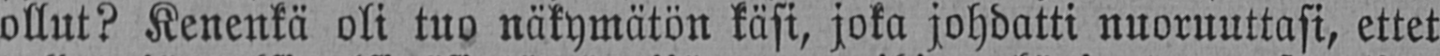ollut? Kenenkä oli tuo näkymätön käsi, joka johdatti nuoruuttasi, ettet
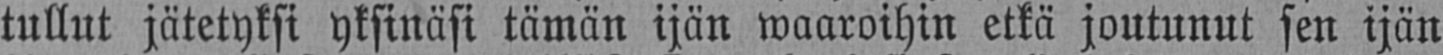tullut jätetyksi yksinäsi tämän ijän waaroihin etkä joutunut sen ijän
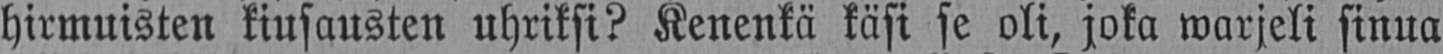hirmuisten kiusausten uhriksi? Kenenkä käsi se oli, joka warjeli sinua
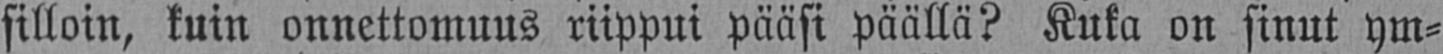silloin, kuin onnettomuus riippui pääsi päällä? Kuka on sinut ym-
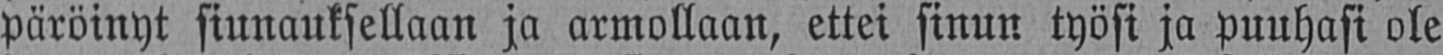päröinyt siunauksellaan ja armollaan, ettei sinun työsi ja puuhasi ole
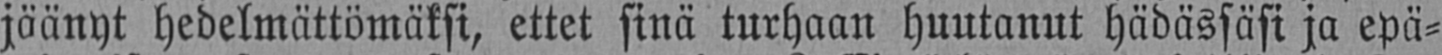jäänyt hedelmättömäksi, ettet sinä turhaan huutanut hädässäsi ja epä-
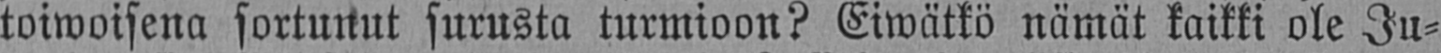toiwoisena sortunut surusta turmioon? Eiwätkö nämät kaikki ole Ju-
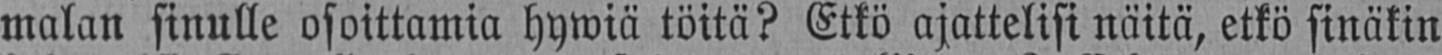malan sinulle osoittamia hywiä töitä? Etkö ajattelisi näitä, etkö sinäkin
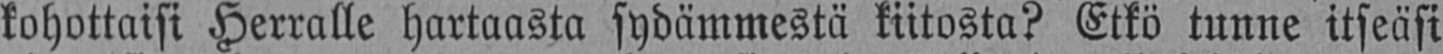kohottaisi Herralle hartaasta sydämmestä kiitosta? Etkö tunne itseäsi
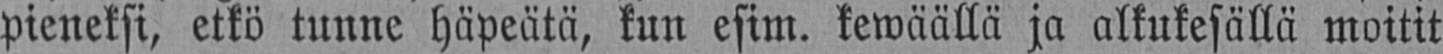pieneksi, etkö tunne häpeätä, kun esim. kewäällä ja alkukesällä moitit
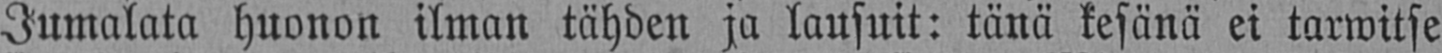Jumalata huonon ilman tähden ja lausuit: tänä kesänä ei tarwitse
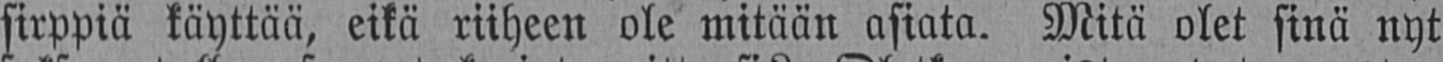sirppiä käyttää, eikä riiheen ole mitään asiata. Mitä olet sinä nyt
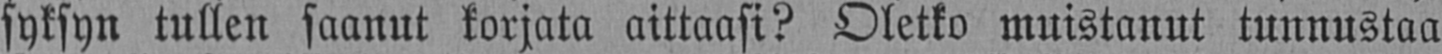syksyn tullen saanut korjata aittaasi? Oletko muistanut tunnustaa
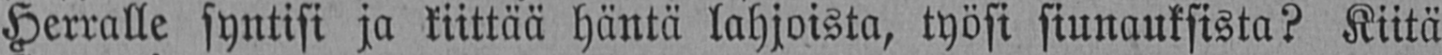Herralle syntisi ja kiittää häntä lahjoista, työsi siunauksista? Kiitä
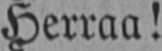Herraa!
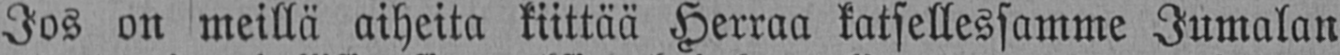Jos on meillä aiheita kiittää Herraa katsellessamme Jumalan
